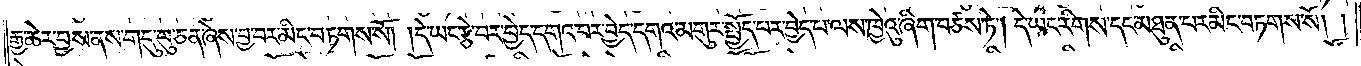རྒྱ་ཆེར་བྱས་ནས་གདུ་བུ་ཅན་ཞེས་བྱ་བར་མིང་བཏགས་སོ། །དེ་ཡང་རྩེ་བར་བྱེད་དགའ་བར་བྱེད་དགའ་མགུར་སྤྱོད་པར་བྱེད་པ་ལས་ཁྱེའུ་ཞིག་བཙས་ཏེ། དེ་ཡང་རིགས་དང་མཐུན་པར་མིང་བཏགས་སོ༎
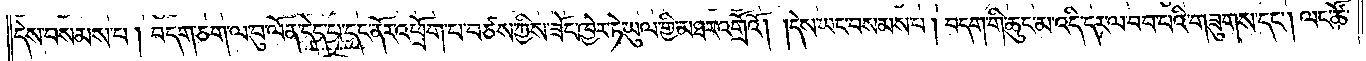དེས་བསམས་པ། བདག་ཅག་ལ་བུ་ལོན་དེད་པ་དང་ནོར་འཕྲོག་པ་བཙས་ཀྱིས་ཟོང་ཁྱེར་ཏེ་ཡུལ་གྱི་མཐར་འགྲོའོ། །དེས་ཡང་བསམས་པ། བདག་གི་ཆུང་མ་འདི་དར་ལ་བབ་པའི་གཟུགས་དང༌། ལང་ཚོ་
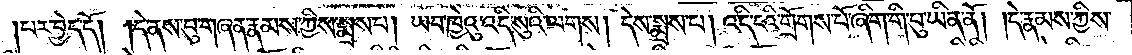པར་བྱེད་དོ། །དེ་ནས་བུ་གཞན་རྣམས་ཀྱིས་སྨྲས་པ། ཡབ་ཁྱེའུ་འདི་སུའི་ལགས། དེས་སྨྲས་པ། འདི་ངའི་གྲོགས་པོ་ཞིག་གི་བུ་ཡིན་ནོ། །དེ་རྣམས་ཀྱིས་
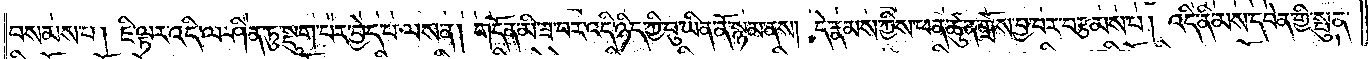བསམས་པ། ཇི་ལྟར་འདི་ལ་ཤིན་ཏུ་སྡུག་པར་བྱེད་པ་ལས་ན། གདོན་མི་ཟ་བར་འདི་ཉིད་ཀྱི་བུ་ཡིན་ནོ་སྙམ་ནས། དེ་རྣམས་ཀྱིས་ཕན་ཚུན་གྲོས་བྱ་བར་བརྩམས་པ། འདི་ནི་མས་དབེན་གྱི་སྤུན་
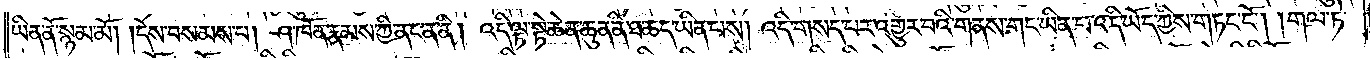ཡིན་ནོ་སྙམ་མོ། །དེས་བསམས་པ། ཤ་ཁོན་རྣམས་ཀྱི་ནང་ན་ནི། འདི་ལྟ་སྟེ་ཆེན་ཆུན་ནི་ཐ་ཆད་ཡིན་པས། འདི་གསད་པར་འགྱུར་བའི་གནས་གང་ཡིན་པ་འདི་ཡོད་ཀྱིས་གཏང་ངོ༌། །གལ་ཏེ་
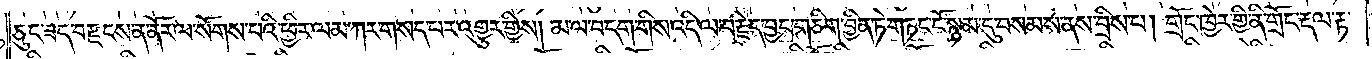ཅུང་ཟད་བརྫངས་ན་ནོར་ལ་སོགས་པའི་ཕྱིར་ལམ་ཀར་གསད་པར་འགྱུར་གྱིས། མ་ལ་བདག་གིས་འདི་ལ་བརྗེད་བྱང་གཅིག་བྱིན་ཏེ་གཏང་ངོ་སྙམ་དུ་བསམས་ནས་བྲིས་པ། གྲོང་ཁྱེར་གྱི་ནི་གྲོང་རྡལ་རྟ་
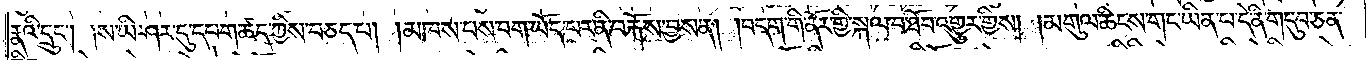རྣའི་དྲུང༌། །ས་ཡི་ཤར་དུ་དཔག་ཚད་ཀྱིས་བཅད་པ། །མཁས་པས་བག་ཡོད་པར་ནི་བརྐོས་བྱས་ན། །བདག་གི་ནོར་གྱི་སྐལ་བ་ཐོབ་འགྱུར་གྱིས། མགུལ་ཆིངས་གང་ཡིན་པ་དེ་ནི་གདུབ་ཅན་
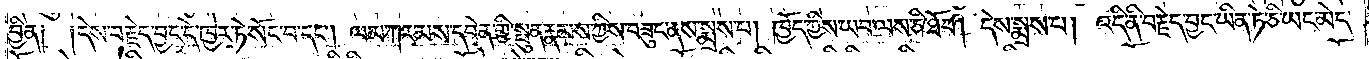བྱིན༑ །དེས་བརྗེད་བྱང་དེ་ཁྱེར་ཏེ་སོང་བ་དང༌། ལམ་ཀར་མས་དབེན་གྱི་སྤུན་རྣམས་ཀྱིས་བཟུང་ནས་སྨྲས་པ། ཁྱོད་ཀྱིས་ཡབ་ལས་ཅི་ཐོབ། དེས་སྨྲས་པ། འདི་ནི་བརྗེད་བྱང་ཡིན་ཏེ་ཅི་ཡང་མེད་
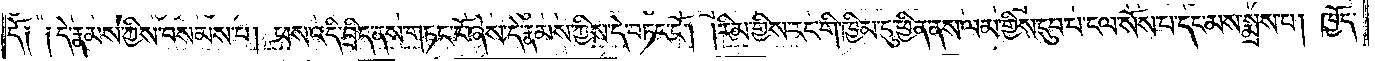དོ༑  ༑དེ་རྣམས་ཀྱིས་བསམས་པ། ཕས་འདི་བྲིད་ནས་གཏང་ངོ་ཞེས་དེ་རྣམས་ཀྱིས་དེ་བཏང་ངོ༌། །རིམ་གྱིས་རང་གི་ཁྱིམ་དུ་ཕྱིན་ནས་ལམ་གྱིས་དུབ་པ་ངལ་སོས་པ་དང་མས་སྨྲས་པ། ཁྱོད་
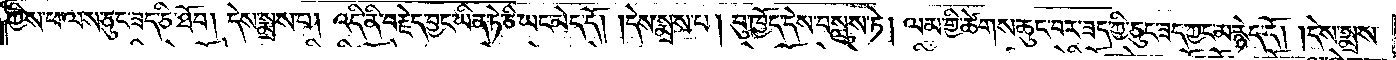ཀྱིས་ཕ་ལས་ཅུང་ཟད་ཅི་ཐོབ། དེས་སྨྲས་པ། འདི་ནི་བརྗེད་བྱང་ཡིན་ཏེ་ཅི་ཡང་མེད་དོ། །དེས་སྨྲས་པ། བུ་ཁྱོད་དེས་བསླུས་ཏེ། ལམ་གྱི་ཚེགས་ཆུང་བར་ཟད་ཀྱི་ཅུང་ཟད་ཀྱང་མ་རྙེད་དོ། །དེས་སྨྲས་
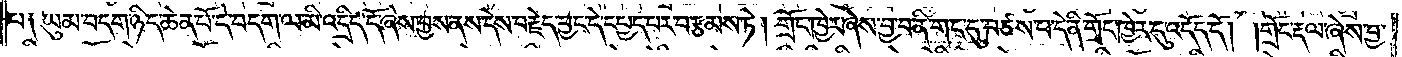པ༑ ཡུམ་བདག་ཉིད་ཆེན་པོ་དེ་བདག་ལ་མི་འདྲིད་དོ་ཞེས་བྱས་ནས་དེས་བརྗེད་བྱང་དེ་དཔྱད་པར་བརྩམས་ཏེ། གྲོང་ཁྱེར་ཞེས་བྱ་བ་ནི་གང་དུ་བཙས་པ་དེ་ནི་གྲོང་ཁྱེར་དུ་འདོད་དོ། །གྲོང་རྡལ་ཞེས་བྱ་
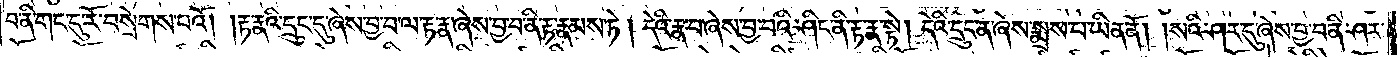བ་ནི་གང་དུ་རོ་བསྲེགས་པའོ། །རྟ་རྣའི་དྲུང་དུ་ཞེས་བྱ་བ་ལ་རྟ་རྣ་ཞེས་བྱ་བ་ནི་རྟ་རྣམས་ཏེ། དེའི་རྣ་བ་ཞེས་བྱ་བའི་ཤིང་ནི་རྟ་རྣ་སྟེ། དེའི་དྲུང་ན་ཞེས་སྨྲས་པ་ཡིན་ནོ། །སའི་ཤར་དུ་ཞེས་བྱ་བ་ནི་ཤར་
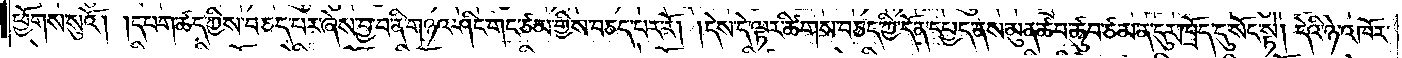ཕྱོགས་སུའོ། །དཔག་ཚད་ཀྱིས་བཅད་པར་ཞེས་བྱ་བ་ནི་གཉའ་ཤིང་གང་ཙམ་གྱིས་བཅད་པར་རོ། །དེས་དེ་ལྟར་ཚིགས་བཅད་ཀྱི་དོན་དཔྱད་ནས་མུན་ཚབ་ཚུབ་ཙམ་ན་དུར་ཁྲོད་དུ་སོང་སྟེ། དེའི་ཉེ་འཁོར་
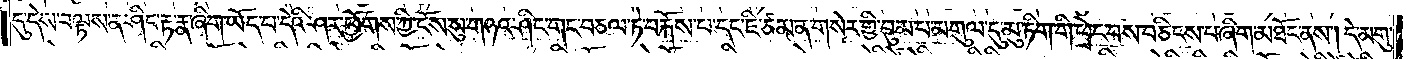དུ་དེས་བལྟས་ན་ཤིང་རྟ་རྣ་ཞིག་ཡོད་པ་དེའི་ཤར་ཕྱོགས་ཀྱི་ངོས་སུ་གཉའ་ཤིང་གང་བཅལ་ཏེ་བརྐོས་པ་དང་ཇི་ཙམ་ན་གསེར་གྱི་བུམ་པ་མགུལ་དུ་མུ་ཏིག་གི་ཕྲེང་བས་བཅིངས་པ་ཞིག་མཐོང་ནས། དེ་མགུ་
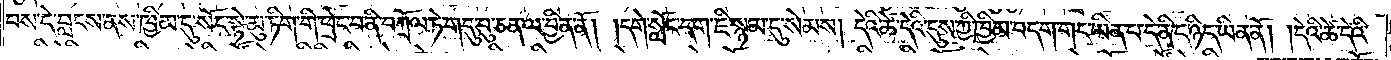བས་དེ་བླངས་ནས་ཁྱིམ་དུ་སོང་སྟེ་མུ་ཏིག་གི་ཕྲེང་བ་ནི་བཀྲོལ་ཏེ་གདུ་བུ་ཅན་ལ་བྱིན་ནོ། །དགེ་སློང་དག་ཇི་སྙམ་དུ་སེམས། དེའི་ཚེ་དེའི་དུས་ཀྱི་ཁྱིམ་བདག་གང་ཡིན་པ་དེ་ནི་ང་ཉིད་ཡིན་ནོ། །དེའི་ཚེ་དེའི་
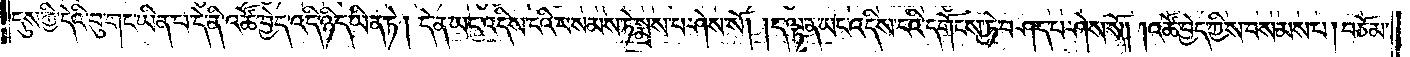དུས་ཀྱི་དེའི་བུ་གང་ཡིན་པ་དེ་ནི་འཚོ་བྱེད་འདི་ཉིད་ཡིན་ཏེ། དེ་ན་ཡང་འདིས་ངའི་བསམས་ཏེ་སྨྲས་པ་ཤེས་སོ། །ད་ལྟ་ན་ཡང་འདིས་ངའི་དགོངས་ཏེ་བཤད་པ་ཤེས་སོ། །འཚོ་བྱེད་ཀྱིས་བསམས་པ། བཅོམ་
